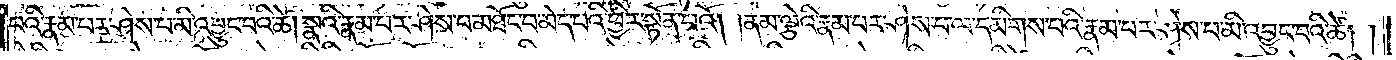པའི་རྣམ་པར་ཤེས་པ་མི་འབྱུང་བའི་ཚེ། སྣའི་རྣམ་པར་ཤེས་པ་མཐོང་བ་མེད་པའི་ཕྱིར་སྟོན་པའོ། །ནམ་ལྕེའི་རྣམ་པར་ཤེས་པ་ལ་དམིགས་པའི་རྣམ་པར་ཤེས་པ་མི་འབྱུང་བའི་ཚེ།
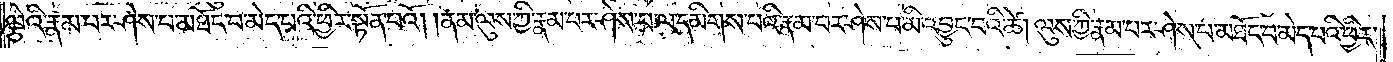ལྕེའི་རྣམ་པར་ཤེས་པ་མཐོང་བ་མེད་པའི་ཕྱིར་སྟོན་པའོ། །ནམ་ལུས་ཀྱི་རྣམ་པར་ཤེས་པ་ལ་དམིགས་པའི་རྣམ་པར་ཤེས་པ་མི་འབྱུང་བའི་ཚེ། ལུས་ཀྱི་རྣམ་པར་ཤེས་པ་མཐོང་བ་མེད་པའི་ཕྱིར་
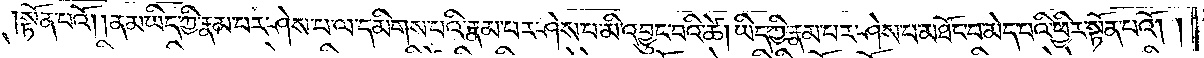སྟོན་པའོ། །ནམ་ཡིད་ཀྱི་རྣམ་པར་ཤེས་པ་ལ་དམིགས་པའི་རྣམ་པར་ཤེས་པ་མི་འབྱུང་བའི་ཚེ། ཡིད་ཀྱི་རྣམ་པར་ཤེས་པ་མཐོང་བ་མེད་པའི་ཕྱིར་སྟོན་པའོ། །
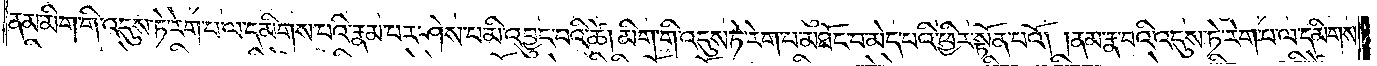ནམ་མིག་གི་འདུས་ཏེ་རེག་པ་ལ་དམིགས་པའི་རྣམ་པར་ཤེས་པ་མི་འབྱུང་བའི་ཚེ། མིག་གི་འདུས་ཏེ་རེག་པ་མཐོང་བ་མེད་པའི་ཕྱིར་སྟོན་པའོ། །ནམ་རྣ་བའི་འདུས་ཏེ་རེག་པ་ལ་དམིགས་
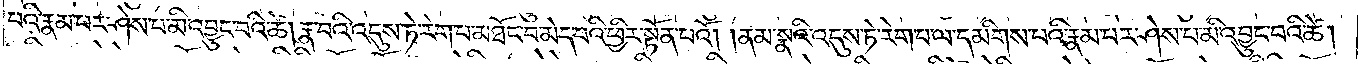པའི་རྣམ་པར་ཤེས་པ་མི་འབྱུང་བའི་ཚེ། རྣ་བའི་འདུས་ཏེ་རེག་པ་མཐོང་བ་མེད་པའི་ཕྱིར་སྟོན་པའོ། །ནམ་སྣའི་འདུས་ཏེ་རེག་པ་ལ་དམིགས་པའི་རྣམ་པར་ཤེས་པ་མི་འབྱུང་བའི་ཚེ།
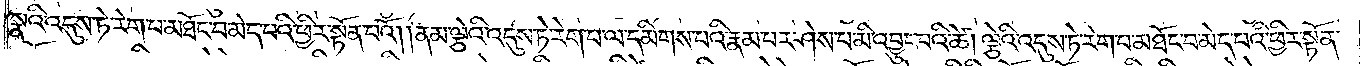སྣའི་འདུས་ཏེ་རེག་པ་མཐོང་བ་མེད་པའི་ཕྱིར་སྟོན་པའོ། །ནམ་ལྕེའི་འདུས་ཏེ་རེག་པ་ལ་དམིགས་པའི་རྣམ་པར་ཤེས་པ་མི་འབྱུང་བའི་ཚེ། ལྕེའི་འདུས་ཏེ་རེག་པ་མཐོང་བ་མེད་པའི་ཕྱིར་སྟོན་
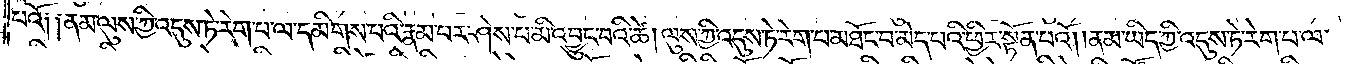པའོ༑ ༑ནམ་ལུས་ཀྱི་འདུས་ཏེ་རེག་པ་ལ་དམིགས་པའི་རྣམ་པར་ཤེས་པ་མི་འབྱུང་བའི་ཚེ། ལུས་ཀྱི་འདུས་ཏེ་རེག་པ་མཐོང་བ་མེད་པའི་ཕྱིར་སྟོན་པའོ། །ནམ་ཡིད་ཀྱི་འདུས་ཏེ་རེག་པ་ལ་
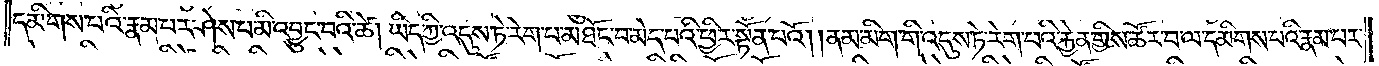དམིགས་པའི་རྣམ་པར་ཤེས་པ་མི་འབྱུང་བའི་ཚེ། ཡིད་ཀྱི་འདུས་ཏེ་རེག་པ་མཐོང་བ་མེད་པའི་ཕྱིར་སྟོན་པའོ། །ནམ་མིག་གི་འདུས་ཏེ་རེག་པའི་རྐྱེན་གྱིས་ཚོར་བ་ལ་དམིགས་པའི་རྣམ་པར་
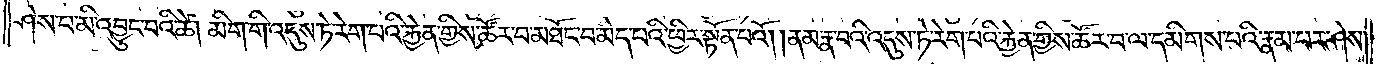ཤེས་པ་མི་འབྱུང་བའི་ཚེ། མིག་གི་འདུས་ཏེ་རེག་པའི་རྐྱེན་གྱིས་ཚོར་བ་མཐོང་བ་མེད་པའི་ཕྱིར་སྟོན་པའོ། །ནམ་རྣ་བའི་འདུས་ཏེ་རེག་པའི་རྐྱེན་གྱིས་ཚོར་བ་ལ་དམིགས་པའི་རྣམ་པར་ཤེས་
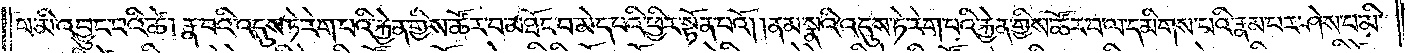པ་མི་འབྱུང་བའི་ཚེ། རྣ་བའི་འདུས་ཏེ་རེག་པའི་རྐྱེན་གྱིས་ཚོར་བ་མཐོང་བ་མེད་པའི་ཕྱིར་སྟོན་པའོ། །ནམ་སྣའི་འདུས་ཏེ་རེག་པའི་རྐྱེན་གྱིས་ཚོར་བ་ལ་དམིགས་པའི་རྣམ་པར་ཤེས་པ་མི་
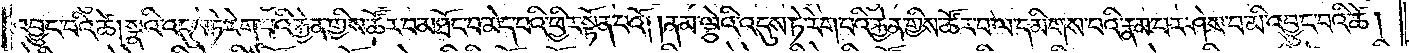འབྱུང་བའི་ཚེ། སྣའི་འདུས་ཏེ་རེག་པའི་རྐྱེན་གྱིས་ཚོར་བ་མཐོང་བ་མེད་པའི་ཕྱིར་སྟོན་པའོ། །ནམ་ལྕེའི་འདུས་ཏེ་རེག་པའི་རྐྱེན་གྱིས་ཚོར་བ་ལ་དམིགས་པའི་རྣམ་པར་ཤེས་པ་མི་འབྱུང་བའི་ཚེ།
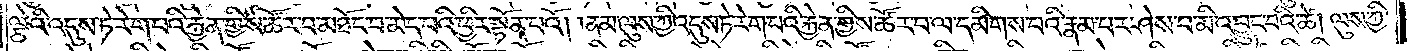ལྕེའི་འདུས་ཏེ་རེག་པའི་རྐྱེན་གྱིས་ཚོར་བ་མཐོང་བ་མེད་པའི་ཕྱིར་སྟོན་པའོ། །ནམ་ལུས་ཀྱི་འདུས་ཏེ་རེག་པའི་རྐྱེན་གྱིས་ཚོར་བ་ལ་དམིགས་པའི་རྣམ་པར་ཤེས་པ་མི་འབྱུང་བའི་ཚེ། ལུས་ཀྱི་
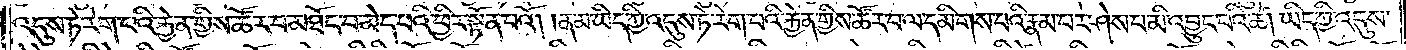འདུས་ཏེ་རེག་པའི་རྐྱེན་གྱིས་ཚོར་བ་མཐོང་བ་མེད་པའི་ཕྱིར་སྟོན་པའོ། །ནམ་ཡིད་ཀྱི་འདུས་ཏེ་རེག་པའི་རྐྱེན་གྱིས་ཚོར་བ་ལ་དམིགས་པའི་རྣམ་པར་ཤེས་པ་མི་འབྱུང་བའི་ཚེ། ཡིད་ཀྱི་འདུས་
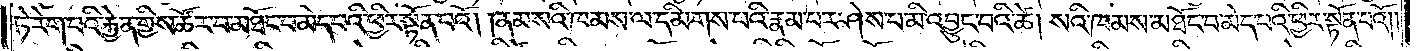ཏེ་རེག་པའི་རྐྱེན་གྱིས་ཚོར་བ་མཐོང་བ་མེད་པའི་ཕྱིར་སྟོན་པའོ། །ནམ་སའི་ཁམས་ལ་དམིགས་པའི་རྣམ་པར་ཤེས་པ་མི་འབྱུང་བའི་ཚེ། སའི་ཁམས་མཐོང་བ་མེད་པའི་ཕྱིར་སྟོན་པའོ། །
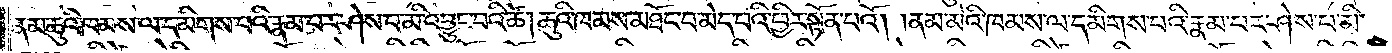ནམ་ཆུའི་ཁམས་ལ་དམིགས་པའི་རྣམ་པར་ཤེས་པ་མི་འབྱུང་བའི་ཚེ། ཆུའི་ཁམས་མཐོང་བ་མེད་པའི་ཕྱིར་སྟོན་པའོ། །ནམ་མེའི་ཁམས་ལ་དམིགས་པའི་རྣམ་པར་ཤེས་པ་མི་
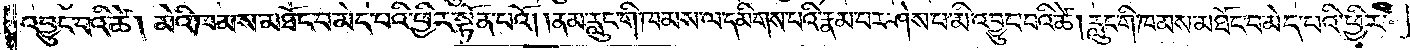འབྱུང་བའི་ཚེ། མེའི་ཁམས་མཐོང་བ་མེད་པའི་ཕྱིར་སྟོན་པའོ། །ནམ་རླུང་གི་ཁམས་ལ་དམིགས་པའི་རྣམ་པར་ཤེས་པ་མི་འབྱུང་བའི་ཚེ། རླུང་གི་ཁམས་མཐོང་བ་མེད་པའི་ཕྱིར་
